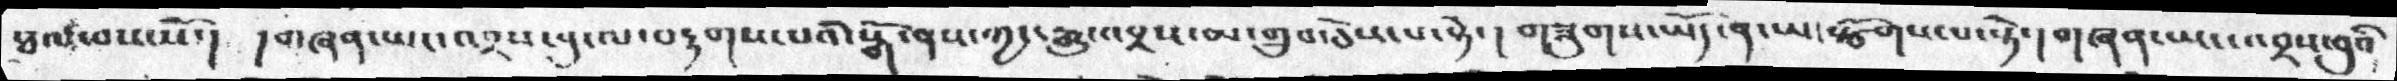ཐལ་བས་སོ་། །གཞན་ཡང་འབྲས་བུ་ལ་བརྟགས་པའི་སྒོ་ནས་ཀྱང་རྒྱུ་འབྲས་མ་གྲུབ་ཅེས་པ་སྟེ་།  གཟུགས་ཡོད་ན་ཡང་སྩོགས་པ་ཏེ་དགཞན་ཡང་འབྲས་བུའི
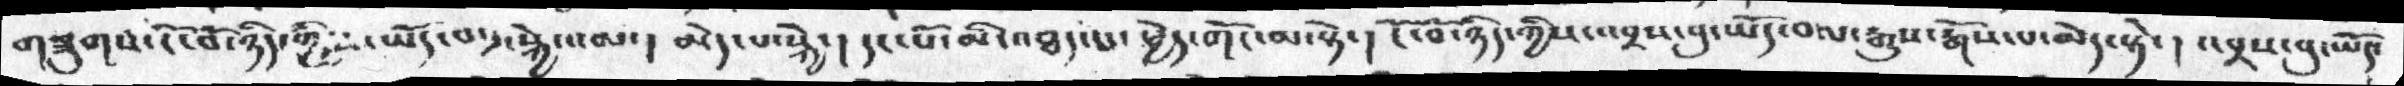གཟུགས་ངོ་བོ་ཉིད་ཀྱི་ཡོད་བ་༡་སྐྱེ་འམ་།   མེད་པ་སྐྱེ་།  དང་པོ་མི་འཐད་པ་ཕྱེད་གོང་མ་སྟེ་།  ངོ་བོ་ཉིད་ཀྱིས་འབྲས་བུ་ཡོད་བ་ལ་རྒྱུས་རྒོས་པ་མེད་སྟེ་།  འབྲས་བུ་ཡོད་
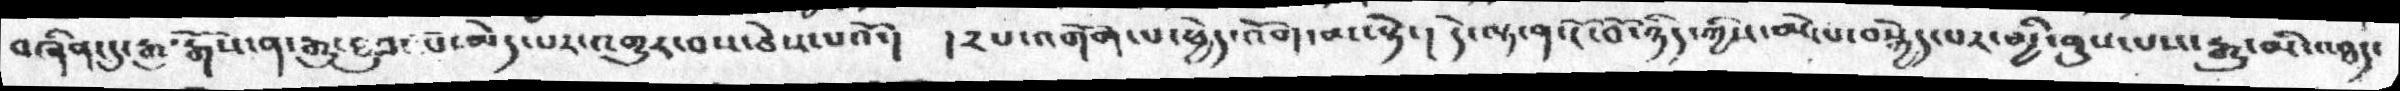བཞིན་དུ་རྒྱུ་རྒོས་ཐུབ་པ་མེད་པར་འགྱུར་བས་ཅེས་པའོ་།  །༢པ་འགོག་པ་ཕྱེད་འོག་མ་སྟེ་། དེ་ལྟ་ན་ངོ་བོ་ཉིད་ཀྱིས་མེ་པ་བསྐྱེད་པར་མྱི་ནུས་པས་རྒྱུ་མི་འཐད་
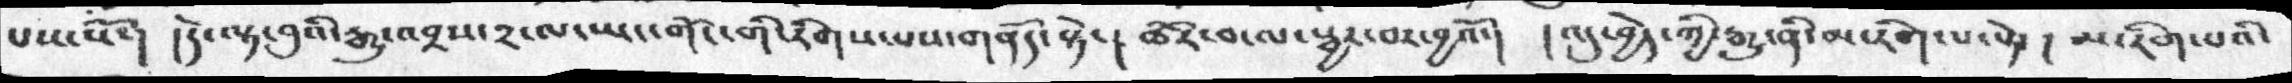པས་སོ་།  །དེ་ལྟ་བུའི་རྒྱུ་འབྲས་༢་ལ་ཡང་གོང་གི་རིགས་པས་གནོད་སྟེ་། ཚོར་བ་ལ་སྦྱར་བར་བྱའོ་། །འདུ་བྱེད་ཀྱི་རྒྱུ་ནི་མ་རིག་པ་སྟེ་། མ་རིག་པའི་
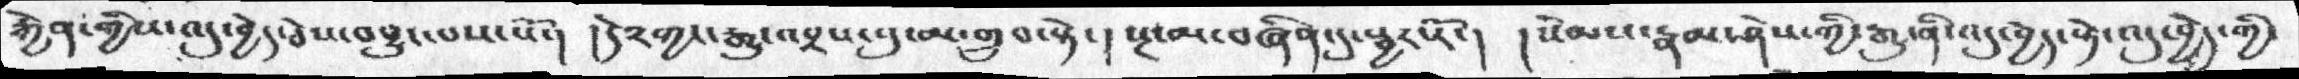རྐྱེན་གྱིས་འདུ་བྱེད་ཅེས་འབྱུང་བས་སོ་།  །དེ༢ཀྱང་རྒྱུ་འབྲས་སུ་མ་གྲུབ་སྟེ་། སྔ་མ་བཞིན་དུ་སྦྱར་རོ་།  །སེམས་རྣམ་ཤེས་ཀྱི་རྒྱུ་ནི་འདུ་བྱེད་ཀྱི་
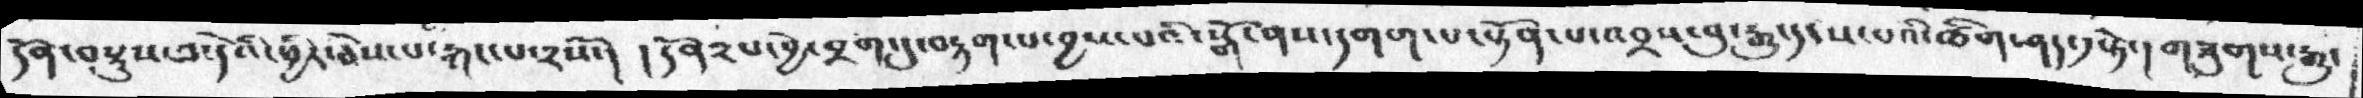དོན་བསྡུས་པ་དེའི་ཕྱིར་ཅེས་པ་རྐང་པ་༢སོ་།  །དོན༢པ་བྱེ་བྲག་དུ་བརྟག་པ་བྱས་པའི་སྒོ་ནས་དགག་པ་སྟོན་པ་འབྲས་བུ་རྒྱུ་ད་ས་པའི་ཚིག་ཤད་༡སྟེ་། གཟུགས་རྒྱུ་
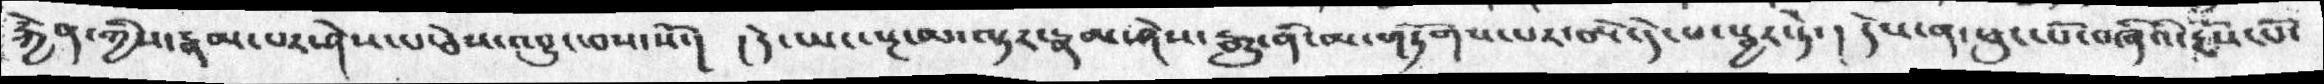རྐྱེན་ཀྱིས་རྣམ་པར་ཤེས་པ་ཅེས་འབྱུང་བས་སོ་།  །དེ་ཡང་སྔ་མ་ལྟར་རྣམ་ཤེས་རྒྱུ་ནི་མ་གཏོགས་པར་ཨེ་དེ་པ་སྦྱར་ཏེ་། དེས་ན་ཕུང་པོ་བཞིའི་རྔོས་པོ་
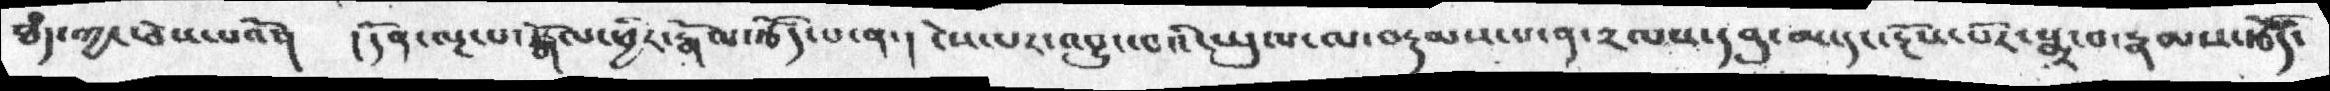ཐཾད་ཀྱང་ཕོས་པའོ་།  །དོན་ལྔ་པ་རྒོལ་ཕྱིར་རྒོལ་རྩོད་པ་ན་།  ངེས་པར་འབྱུང་བའི་ཡུལ་ལ་བརྡམས་པ་ན་༢ལས་དབུ་མ་དང་རྔོས་པོར་སྨྲ་བ་རྣམས་རྩོད་
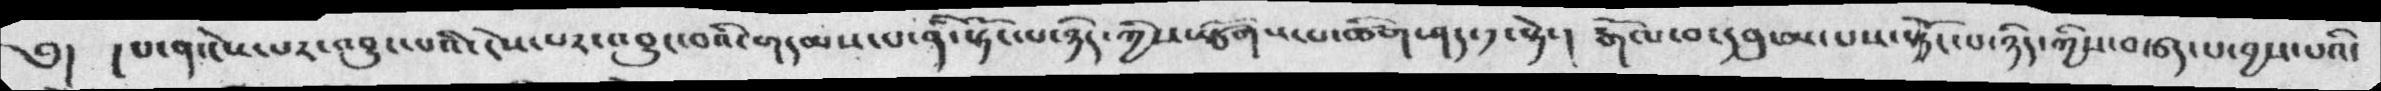༅། །པ་ན་ངེས་པར་འབྱུང་པའི་ངེས་པར་འབྱུང་བའི་གདམས་པ་ནི་སྟོང་པ་ཉིད་ཀྱིས་སྩོགས་པ་ཚིག་ཤད་༡་སྟེ་། རྒོལ་བ་དབུ་མ་པས་སྟོང་པ་ཉིད་ཀྱིས་བརྩད་པ་བྱས་པའི་
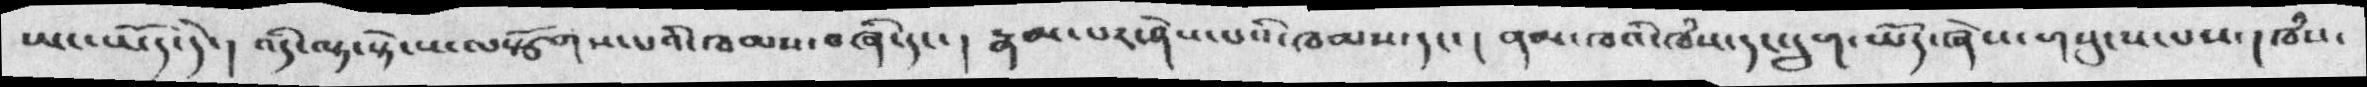ཡང་ཡོད་དེ་། འདི་ལྟ་སྟེ་ས་ལསྩོགས་པའི་ཁམས་བཞི་དང་། རྣམ་པར་ཤེས་པའི་ཁམས་དང་། ནམ་མཁའི་ཁཾས་དང་དྲུག་ཡོད་ཞེས་གསུངས་པས་། ཁཾས་
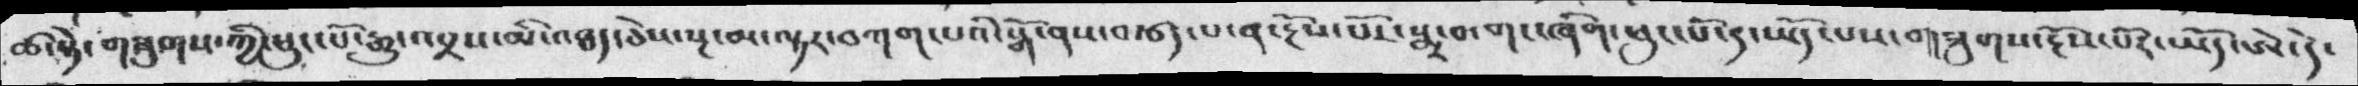ཚ་སྟེ་གཟུགས་ཀྱི་ཕུང་པོ་རྒྱུ་འབྲས་མི་འཐད་ཅེས་སྔ་མ་ལྟར་བཀག་པའི་སྒོ་ནས་བརྩད་པ་ན་རྔོས་པོར་སྨྲ་བ་གང་ཞིག་ཕུང་པོ་ད་ཡོད་པས་གཟུགས་རྔོས་པོར་ཡོད་ཨེ་དེ་
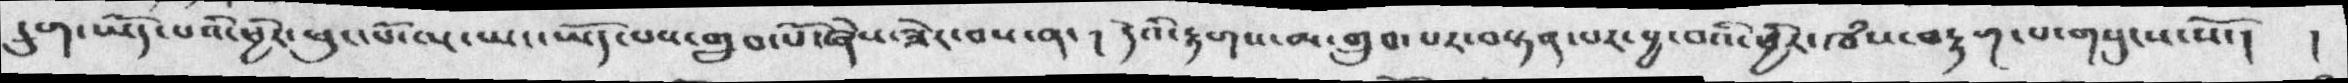དྲུག་ཡོད་པའི་ཕྱིར་ཕུང་པོ་ལ་ཡང་ཡོད་པས་གྲུབ་པོ་ཞེས་ཟེར་བས་ན་། དེའི་རྟགས་མ་གྲུབ་པར་བསྟན་པར་བྱ་བའི་ཕྱིར་ཁཾས་བརྟག་པ་གསུངས་སོ་། །
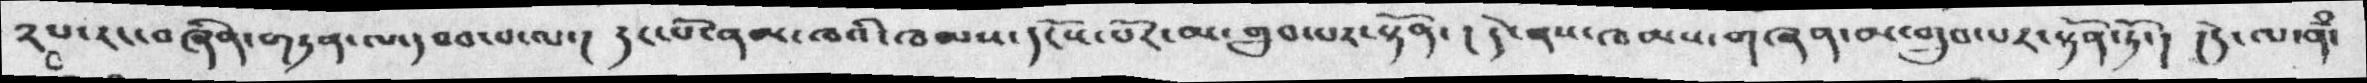༢པ་རང་བཞིན་གཏན་ལ་དབབ་པ་ལ་།  དང་པོ་ནམ་ཁའི་ཁམས་དངོས་པོར་མ་གྲུབ་པར་སྟོན་། དེ་ནས་ཁམས་གཞན་མ་གྲུབ་པར་སྟོན་ཏོ་། །དེ་ལ་ནཾ་
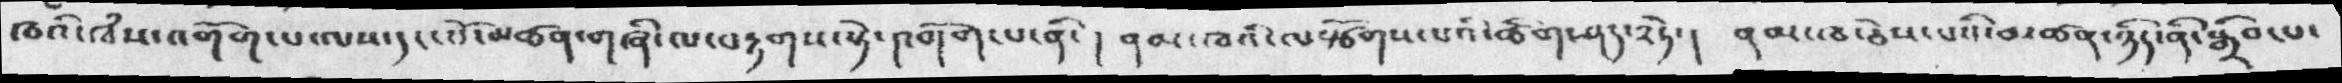ཁའི་ཁཾས་འགོག་པ་ལས་དང་པོ་མཚན་གཞི་ལ་བརྟགས་སྟེ་འགོག་པ་ནི་། ནམ་ཁའི་ལསྩོགས་པའི་ཚིག་ཤད་༢ཏེ་།  ནམ་ཁ་ཅེས་པའི་མཚན་ཉིད་ནི་སྒྲིབ་པ་
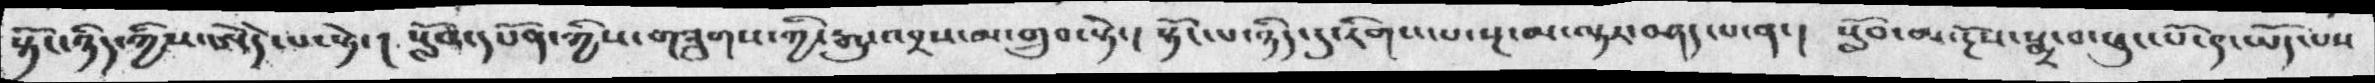སྟོང་ཉིད་ཀྱིས་ཨེདེ་པ་སྟེ་། སློབ་དཔོན་ཀྱིས་གཟུགས་ཀྱི་རྒྱུ་འབྲས་མ་གྲུབ་སྟེ་། སྟོང་པ་ཉིད་དུ་རིགས་པ་སྔ་མ་ལྟར་བཤད་པ་ན་། སློབ་མ་རྔོས་སྨྲ་བ་ཕུང་པོ་ད་ཡོད་པས
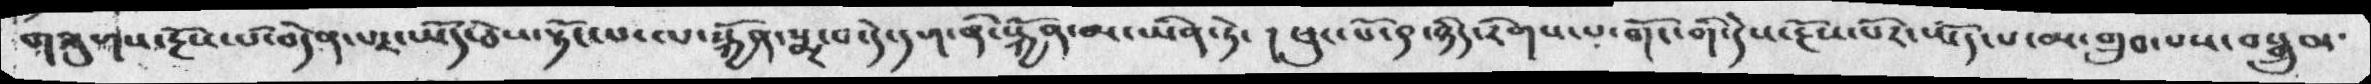གཟུགས་རྔོས་པོ་བདེན་པར་ཡོད་ཅེས་སྟོང་པ་སྐྱོན་སྨྲ་བ་དེ་དག་སྐྱོན་མ་ཡིན་ཏེ་། ཕུང་པོ་ད་ཉིད་རིགས་པ་གོང་གི་རྔོས་པོར་ཡོད་པ་མ་གྲུབ་པས་བསྒྲུབ་
